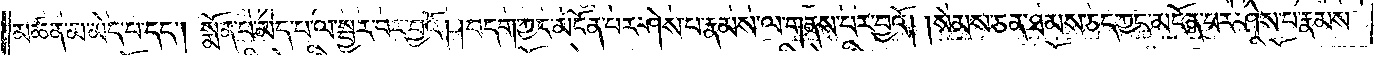མཚན་མ་མེད་པ་དང༌། སྨོན་པ་མེད་པ་ལ་སྦྱར་བར་བྱའོ། །བདག་ཀྱང་མངོན་པར་ཤེས་པ་རྣམས་ལ་གནས་པར་བྱའོ། །སེམས་ཅན་ཐམས་ཅད་ཀྱང་མངོན་པར་ཤེས་པ་རྣམས་
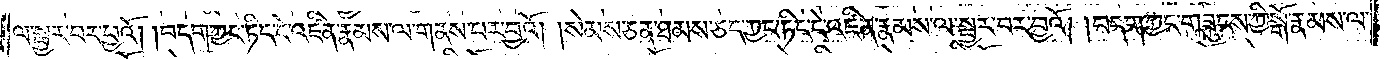ལ་སྦྱར་བར་བྱའོ། །བདག་ཀྱང་ཏིང་ངེ་འཛིན་རྣམས་ལ་གནས་པར་བྱའོ། །སེམས་ཅན་ཐམས་ཅད་ཀྱང་ཏིང་ངེ་འཛིན་རྣམས་ལ་སྦྱར་བར་བྱའོ། །བདག་ཀྱང་གཟུངས་ཀྱི་སྒོ་རྣམས་ལ་
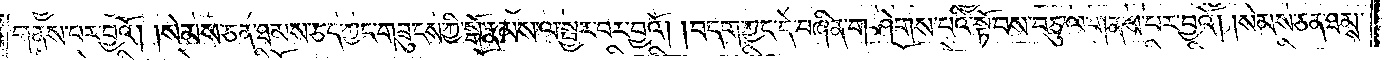གནས་པར་བྱའོ། །སེམས་ཅན་ཐམས་ཅད་ཀྱང་གཟུངས་ཀྱི་སྒོ་རྣམས་ལ་སྦྱར་བར་བྱའོ། །བདག་ཀྱང་དེ་བཞིན་གཤེགས་པའི་སྟོབས་བཅུ་ལ་གནས་པར་བྱའོ། །སེམས་ཅན་ཐམས་
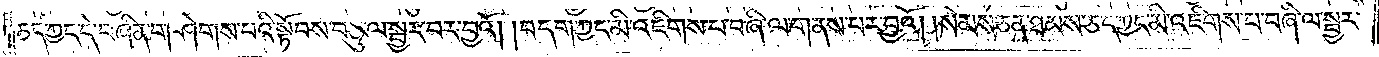ཅད་ཀྱང་དེ་བཞིན་གཤེགས་པའི་སྟོབས་བཅུ་ལ་སྦྱར་བར་བྱའོ། །བདག་ཀྱང་མི་འཇིགས་པ་བཞི་ལ་གནས་པར་བྱའོ། །སེམས་ཅན་ཐམས་ཅད་ཀྱང་མི་འཇིགས་པ་བཞི་ལ་སྦྱར་
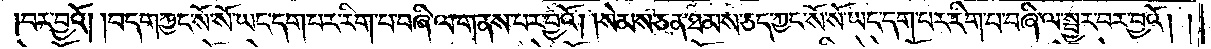བར་བྱའོ། །བདག་ཀྱང་སོ་སོ་ཡང་དག་པར་རིག་པ་བཞི་ལ་གནས་པར་བྱའོ། །སེམས་ཅན་ཐམས་ཅད་ཀྱང་སོ་སོ་ཡང་དག་པར་རིག་པ་བཞི་ལ་སྦྱར་བར་བྱའོ། །
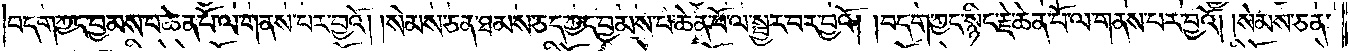བདག་ཀྱང་བྱམས་པ་ཆེན་པོ་ལ་གནས་པར་བྱའོ། །སེམས་ཅན་ཐམས་ཅད་ཀྱང་བྱམས་པ་ཆེན་པོ་ལ་སྦྱར་བར་བྱའོ། །བདག་ཀྱང་སྙིང་རྗེ་ཆེན་པོ་ལ་གནས་པར་བྱའོ། །སེམས་ཅན་
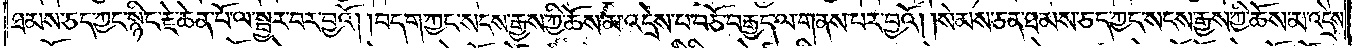ཐམས་ཅད་ཀྱང་སྙིང་རྗེ་ཆེན་པོ་ལ་སྦྱར་བར་བྱའོ། །བདག་ཀྱང་སངས་རྒྱས་ཀྱི་ཆོས་མ་འདྲེས་པ་བཅོ་བརྒྱད་ལ་གནས་པར་བྱའོ༎ སེམས་ཅན་ཐམས་ཅད་ཀྱང་སངས་རྒྱས་ཀྱི་ཆོས་མ་འདྲེས་
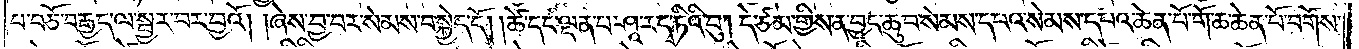པ་བཅོ་བརྒྱད་ལ་སྦྱར་བར་བྱའོ། །ཞེས་བྱ་བར་སེམས་བསྐྱེད་དོ། །ཚེ་དང་ལྡན་པ་ཤཱ་ར་དྭ་ཏིའི་བུ། དེ་ཙམ་གྱིས་ན་བྱང་ཆུབ་སེམས་དཔའ་སེམས་དཔའ་ཆེན་པོ་གོ་ཆ་ཆེན་པོ་བགོས་
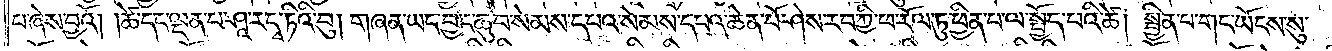པ་ཞེས་བྱའོ། །ཚེ་དང་ལྡན་པ་ཤཱ་ར་དྭ་ཏིའི་བུ། གཞན་ཡང་བྱང་ཆུབ་སེམས་དཔའ་སེམས་དཔའ་ཆེན་པོ་ཤེས་རབ་ཀྱི་ཕ་རོལ་ཏུ་ཕྱིན་པ་ལ་སྤྱོད་པའི་ཚེ། སྦྱིན་པ་གང་ཡོངས་སུ་
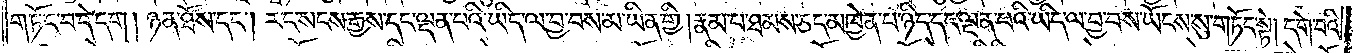གཏོང་བ་དེ་དག །ཉན་ཐོས་དང༌། རང་སངས་རྒྱས་དང་ལྡན་པའི་ཡིད་ལ་བྱ་བས་མ་ཡིན་གྱི། རྣམ་པ་ཐམས་ཅད་མཁྱེན་པ་ཉིད་དང་ལྡན་པའི་ཡིད་ལ་བྱ་བས་ཡོངས་སུ་གཏོང་སྟེ། དགེ་བའི་
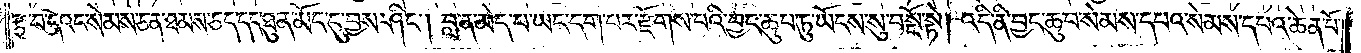རྩ་བས་དེ་འང་སེམས་ཅན་ཐམས་ཅད་དང་ཐུན་མོང་དུ་བྱས་ཤིང༌། བླ་ན་མེད་པ་ཡང་དག་པར་རྫོགས་པའི་བྱང་ཆུབ་ཏུ་ཡོངས་སུ་བསྔོ་སྟེ། འདི་ནི་བྱང་ཆུབ་སེམས་དཔའ་སེམས་དཔའ་ཆེན་པོ་
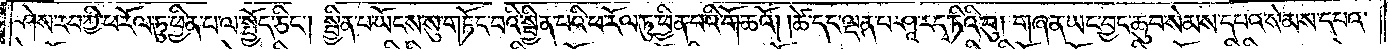ཤེས་རབ་ཀྱི་ཕ་རོལ་ཏུ་ཕྱིན་པ་ལ་སྤྱོད་ཅིང༌། སྦྱིན་པ་ཡོངས་སུ་གཏོང་བའི་སྦྱིན་པའི་ཕ་རོལ་ཏུ་ཕྱིན་པའི་གོ་ཆའོ། །ཚེ་དང་ལྡན་པ་ཤཱ་ར་དྭ་ཏིའི་བུ། གཞན་ཡང་བྱང་ཆུབ་སེམས་དཔའ་སེམས་དཔའ་
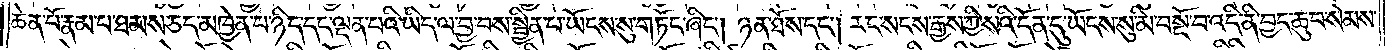ཆེན་པོ་རྣམ་པ་ཐམས་ཅད་མཁྱེན་པ་ཉིད་དང་ལྡན་པའི་ཡིད་ལ་བྱ་བས་སྦྱིན་པ་ཡོངས་སུ་གཏོང་ཞིང༌། ཉན་ཐོས་དང༌། རང་སངས་རྒྱས་ཀྱི་སའི་དོན་དུ་ཡོངས་སུ་མི་བསྔོ་བ་འདི་ནི་བྱང་ཆུབ་སེམས་
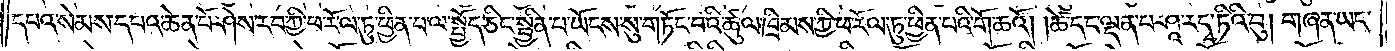དཔའ་སེམས་དཔའ་ཆེན་པོ་ཤེས་རབ་ཀྱི་ཕ་རོལ་ཏུ་ཕྱིན་པ་ལ་སྤྱོད་ཅིང་སྦྱིན་པ་ཡོངས་སུ་གཏོང་བའི་ཚུལ་ཁྲིམས་ཀྱི་ཕ་རོལ་ཏུ་ཕྱིན་པའི་གོ་ཆའོ། །ཚེ་དང་ལྡན་པ་ཤཱ་ར་དྭ་ཏིའི་བུ། གཞན་ཡང་
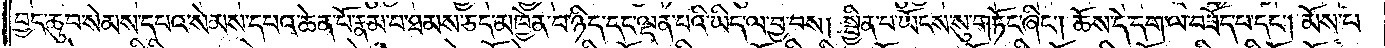བྱང་ཆུབ་སེམས་དཔའ་སེམས་དཔའ་ཆེན་པོ་རྣམ་པ་ཐམས་ཅད་མཁྱེན་པ་ཉིད་དང་ལྡན་པའི་ཡིད་ལ་བྱ་བས། སྦྱིན་པ་ཡོངས་སུ་གཏོང་ཞིང༌། ཆོས་དེ་དག་ལ་བཟོད་པ་དང༌། མོས་པ་
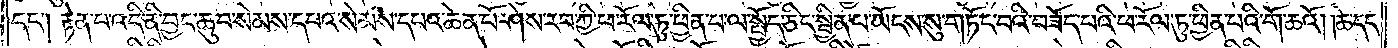དང༌། རྟེན་པ་འདི་ནི་བྱང་ཆུབ་སེམས་དཔའ་སེམས་དཔའ་ཆེན་པོ་ཤེས་རབ་ཀྱི་ཕ་རོལ་ཏུ་ཕྱིན་པ་ལ་སྤྱོད་ཅིང་སྦྱིན་པ་ཡོངས་སུ་གཏོང་བའི་བཟོད་པའི་ཕ་རོལ་ཏུ་ཕྱིན་པའི་གོ་ཆའོ། །ཚེ་དང་
